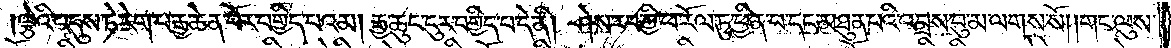ལྕེའི་འདུས་ཏེ་རེག་པ་རྒྱ་ཆེན་པོར་བགྱིད་པའམ། རྒྱ་ཆུང་ངུར་བགྱིད་པ་དེ་ནི། ཤེས་རབ་ཀྱི་ཕ་རོལ་ཏུ་ཕྱིན་པ་དང་མཐུན་པའི་འབྲས་བུ་མ་ལགས་སོ། །གང་ལུས་
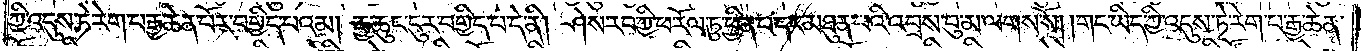ཀྱི་འདུས་ཏེ་རེག་པ་རྒྱ་ཆེན་པོར་བགྱིད་པའམ། རྒྱ་ཆུང་ངུར་བགྱིད་པ་དེ་ནི། ཤེས་རབ་ཀྱི་ཕ་རོལ་ཏུ་ཕྱིན་པ་དང་མཐུན་པའི་འབྲས་བུ་མ་ལགས་སོ། །གང་ཡིད་ཀྱི་འདུས་ཏེ་རེག་པ་རྒྱ་ཆེན་
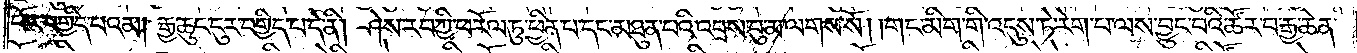པོར་བགྱིད་པའམ། རྒྱ་ཆུང་ངུར་བགྱིད་པ་དེ་ནི། ཤེས་རབ་ཀྱི་ཕ་རོལ་ཏུ་ཕྱིན་པ་དང་མཐུན་པའི་འབྲས་བུ་མ་ལགས་སོ། །གང་མིག་གི་འདུས་ཏེ་རེག་པ་ལས་བྱུང་བའི་ཚོར་བ་རྒྱ་ཆེན་
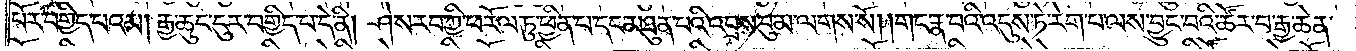པོར་བགྱིད་པའམ། རྒྱ་ཆུང་ངུར་བགྱིད་པ་དེ་ནི། ཤེས་རབ་ཀྱི་ཕ་རོལ་ཏུ་ཕྱིན་པ་དང་མཐུན་པའི་འབྲས་བུ་མ་ལགས་སོ། །གང་རྣ་བའི་འདུས་ཏེ་རེག་པ་ལས་བྱུང་བའི་ཚོར་བ་རྒྱ་ཆེན་
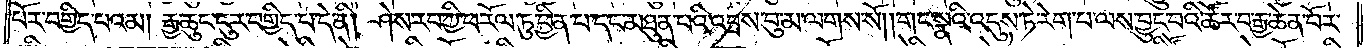པོར་བགྱིད་པའམ། རྒྱ་ཆུང་ངུར་བགྱིད་པ་དེ་ནི། ཤེས་རབ་ཀྱི་ཕ་རོལ་ཏུ་ཕྱིན་པ་དང་མཐུན་པའི་འབྲས་བུ་མ་ལགས་སོ། །གང་སྣའི་འདུས་ཏེ་རེག་པ་ལས་བྱུང་བའི་ཚོར་བ་རྒྱ་ཆེན་པོར་
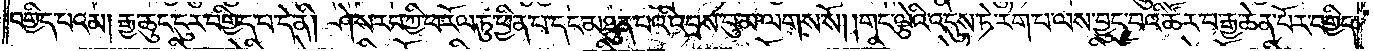བགྱིད་པའམ། རྒྱ་ཆུང་ངུར་བགྱིད་པ་དེ་ནི། ཤེས་རབ་ཀྱི་ཕ་རོལ་ཏུ་ཕྱིན་པ་དང་མཐུན་པའི་འབྲས་བུ་མ་ལགས་སོ། །གང་ལྕེའི་འདུས་ཏེ་རེག་པ་ལས་བྱུང་བའི་ཚོར་བ་རྒྱ་ཆེན་པོར་བགྱིད་
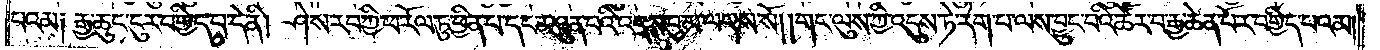པའམ༑ རྒྱ་ཆུང་ངུར་བགྱིད་པ་དེ་ནི། ཤེས་རབ་ཀྱི་ཕ་རོལ་ཏུ་ཕྱིན་པ་དང་མཐུན་པའི་འབྲས་བུ་མ་ལགས་སོ། །གང་ལུས་ཀྱི་འདུས་ཏེ་རེག་པ་ལས་བྱུང་བའི་ཚོར་བ་རྒྱ་ཆེན་པོར་བགྱིད་པའམ།
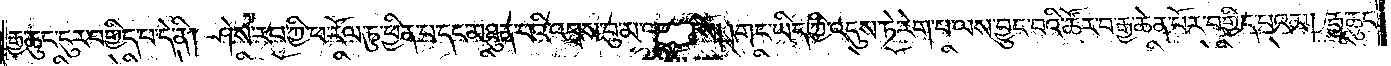རྒྱ་ཆུང་ངུར་བགྱིད་པ་དེ་ནི། ཤེས་རབ་ཀྱི་ཕ་རོལ་ཏུ་ཕྱིན་པ་དང་མཐུན་པའི་འབྲས་བུ་མ་ལགས་སོ། །གང་ཡིད་ཀྱི་འདུས་ཏེ་རེག་པ་ལས་བྱུང་བའི་ཚོར་བ་རྒྱ་ཆེན་པོར་བགྱིད་པའམ། རྒྱ་ཆུང་
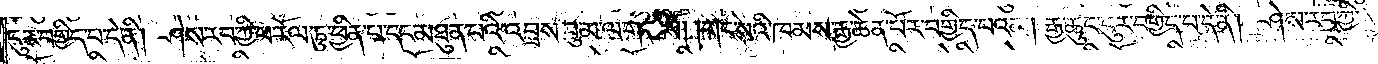ངུར་བགྱིད་པ་དེ་ནི། ཤེས་རབ་ཀྱི་ཕ་རོལ་ཏུ་ཕྱིན་པ་དང་མཐུན་པའི་འབྲས་བུ་མ་ལགས་སོ། །གང་སའི་ཁམས་རྒྱ་ཆེན་པོར་བགྱིད་པའམ། རྒྱ་ཆུང་ངུར་བགྱིད་པ་དེ་ནི། ཤེས་རབ་ཀྱི་
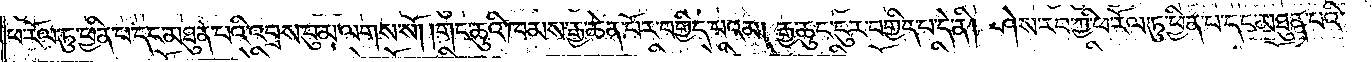ཕ་རོལ་ཏུ་ཕྱིན་པ་དང་མཐུན་པའི་འབྲས་བུ་མ་ལགས་སོ། །གང་ཆུའི་ཁམས་རྒྱ་ཆེན་པོར་བགྱིད་པའམ། རྒྱ་ཆུང་ངུར་བགྱིད་པ་དེ་ནི། ཤེས་རབ་ཀྱི་ཕ་རོལ་ཏུ་ཕྱིན་པ་དང་མཐུན་པའི་
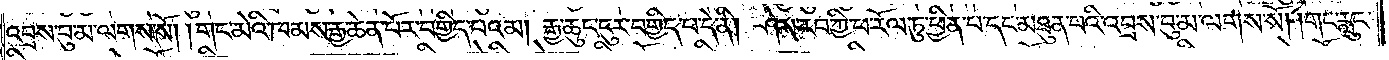འབྲས་བུ་མ་ལགས་སོ། །གང་མེའི་ཁམས་རྒྱ་ཆེན་པོར་བགྱིད་པའམ། རྒྱ་ཆུང་ངུར་བགྱིད་པ་དེ་ནི། ཤེས་རབ་ཀྱི་ཕ་རོལ་ཏུ་ཕྱིན་པ་དང་མཐུན་པའི་འབྲས་བུ་མ་ལགས་སོ། །གང་རླུང་
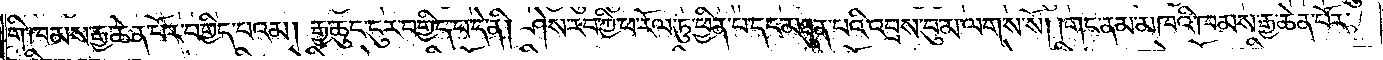གི་ཁམས་རྒྱ་ཆེན་པོར་བགྱིད་པའམ། རྒྱ་ཆུང་ངུར་བགྱིད་པ་དེ་ནི། ཤེས་རབ་ཀྱི་ཕ་རོལ་ཏུ་ཕྱིན་པ་དང་མཐུན་པའི་འབྲས་བུ་མ་ལགས་སོ། །གང་ནམ་མཁའི་ཁམས་རྒྱ་ཆེན་པོར་
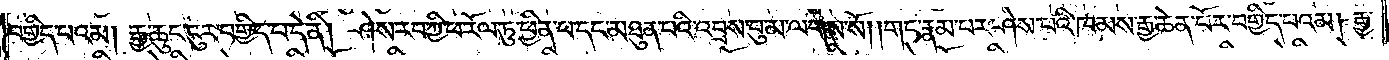བགྱིད་པའམ། རྒྱ་ཆུང་ངུར་བགྱིད་པ་དེ་ནི། ཤེས་རབ་ཀྱི་ཕ་རོལ་ཏུ་ཕྱིན་པ་དང་མཐུན་པའི་འབྲས་བུ་མ་ལགས་སོ། །གང་རྣམ་པར་ཤེས་པའི་ཁམས་རྒྱ་ཆེན་པོར་བགྱིད་པའམ། རྒྱ་
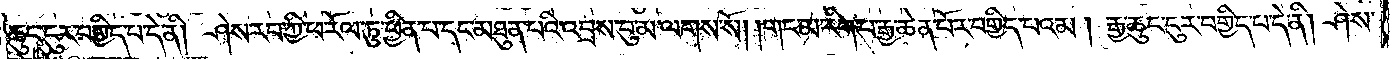ཆུང་ངུར་བགྱིད་པ་དེ་ནི། ཤེས་རབ་ཀྱི་ཕ་རོལ་ཏུ་ཕྱིན་པ་དང་མཐུན་པའི་འབྲས་བུ་མ་ལགས་སོ། །གང་མ་རིག་པ་རྒྱ་ཆེན་པོར་བགྱིད་པའམ། རྒྱ་ཆུང་ངུར་བགྱིད་པ་དེ་ནི། ཤེས་
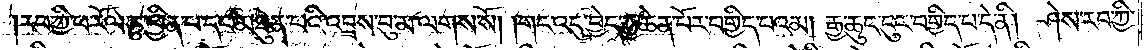རབ་ཀྱི་ཕ་རོལ་ཏུ་ཕྱིན་པ་དང་མཐུན་པའི་འབྲས་བུ་མ་ལགས་སོ། །གང་འདུ་བྱེད་རྒྱ་ཆེན་པོར་བགྱིད་པའམ། རྒྱ་ཆུང་ངུར་བགྱིད་པ་དེ་ནི། ཤེས་རབ་ཀྱི་
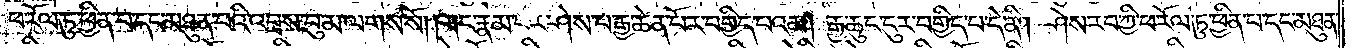ཕ་རོལ་ཏུ་ཕྱིན་པ་དང་མཐུན་པའི་འབྲས་བུ་མ་ལགས་སོ། །གང་རྣམ་པར་ཤེས་པ་རྒྱ་ཆེན་པོར་བགྱིད་པའམ། རྒྱ་ཆུང་ངུར་བགྱིད་པ་དེ་ནི། ཤེས་རབ་ཀྱི་ཕ་རོལ་ཏུ་ཕྱིན་པ་དང་མཐུན་
